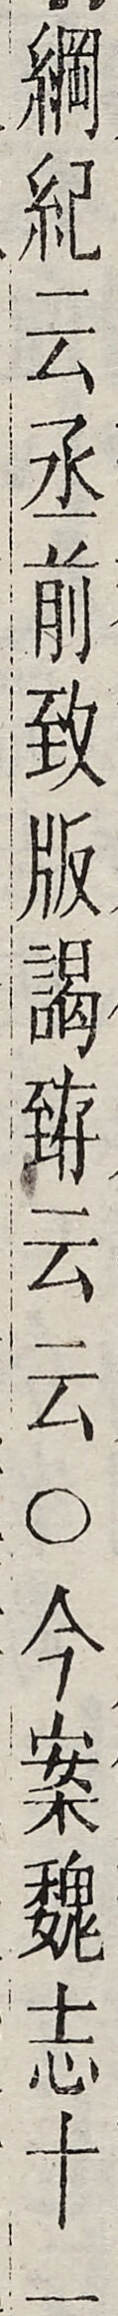綱紀云丞前致版謁珔云云○今案魏志十一
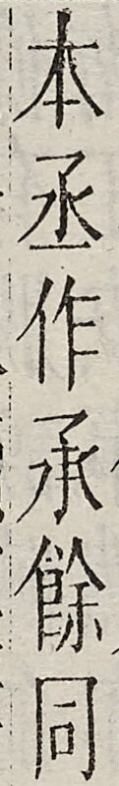本丞作承餘同
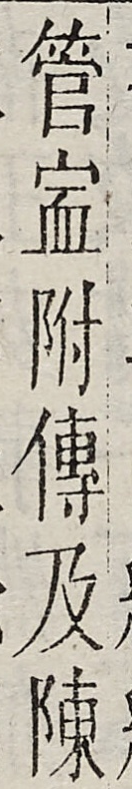管寧附傳及陳
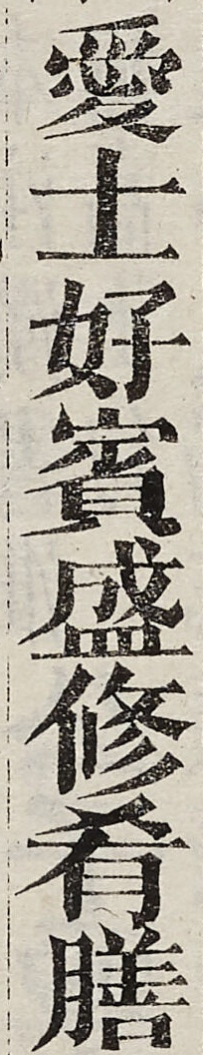愛士好賓盛修肴膳
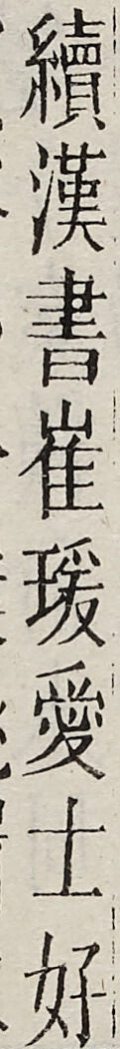續漢書崔瑗愛士好
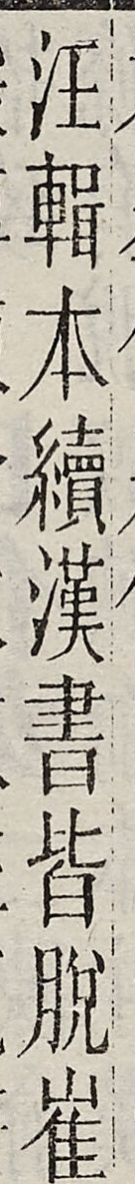汪輯本續漢書皆脫崔
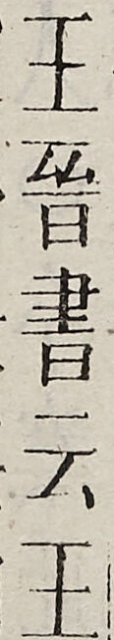王晉書云王
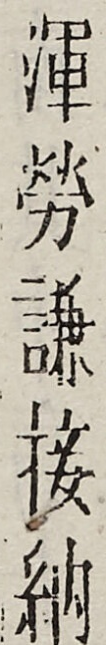渾勞謙接納
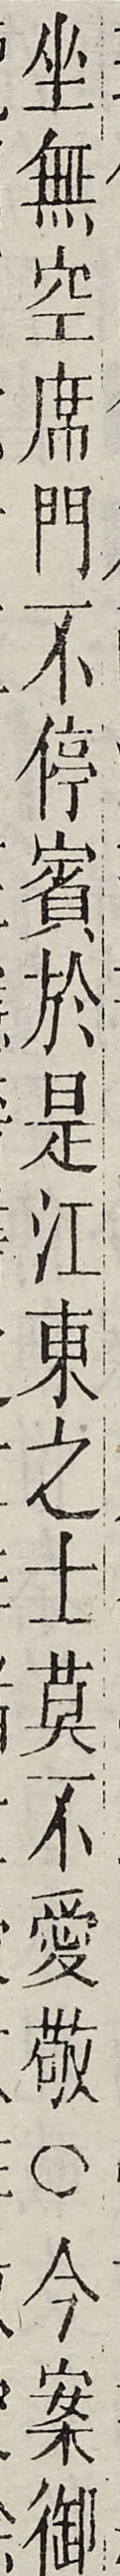坐無空席門不停賓於是江東之士莫不愛敬○今案御
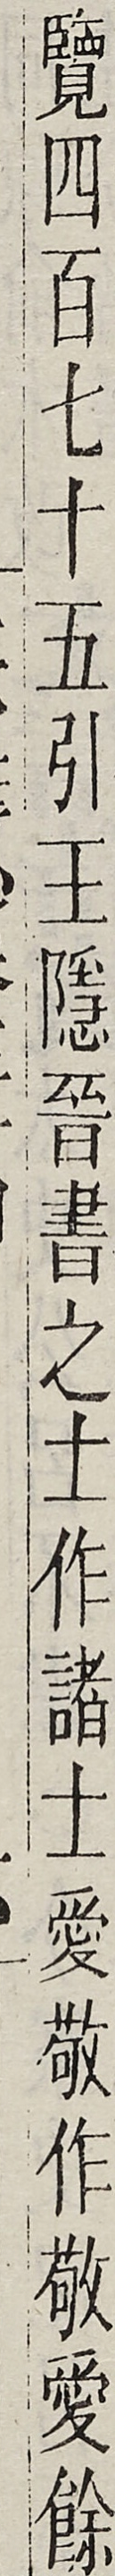覽四百七十五引王隱晉書之士作諸士愛敬作敬愛餘
